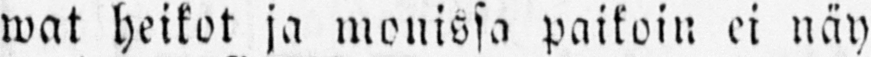wat heikot ja monissa paikoin ei näy
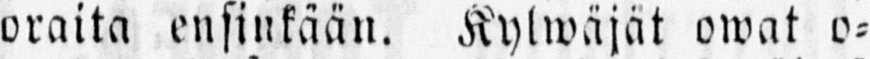oraita ensinkään. Kylwäjät owat o-
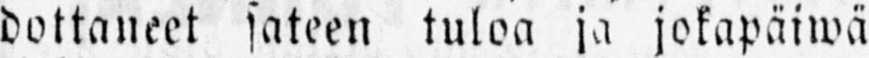dottaneet sateen tuloa ja jokapäiwä
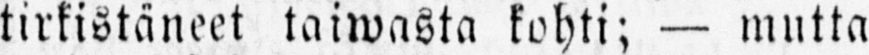tirkistäneet taiwasta kohti; — mutta
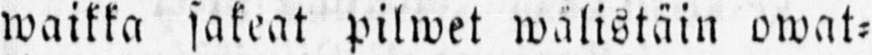waikka sakeat pilwet wälistäin owat-
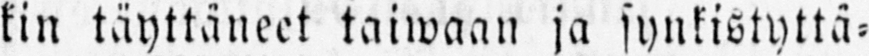kin täyttäneet taiwaan ja synkistyttä-
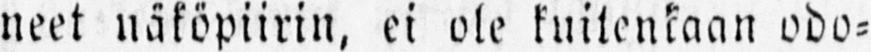neet näköpiirin, ei ole kuitenkaan odo-
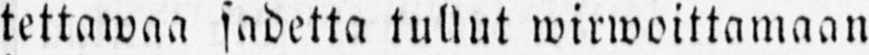tettawaa sadetta tullut wirwoittamaan
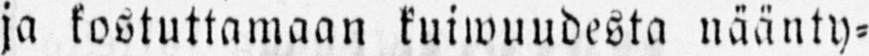ja kostuttamaan kuiwuudesta näänty-
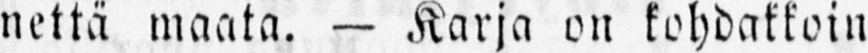nettä maata. — Karja on kohdakkoin
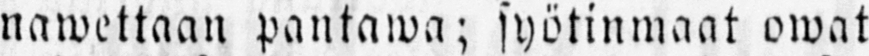nawettaan pantawa; syötinmaat owat
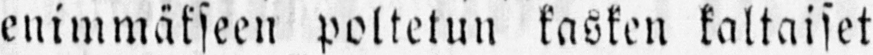enimmäkseen poltetun kasken kaltaiset
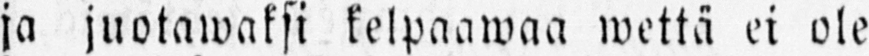ja juotawaksi kelpaawaa wettä ei ole
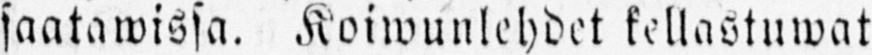saatawissa. Koiwunlehdet kellastuwat
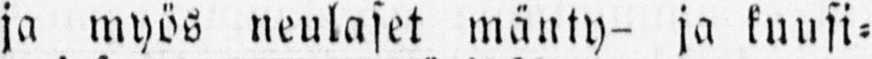ja myös neulaset mänty- ja kuusi-
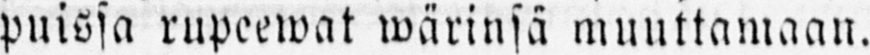puissa rupeewat wärinsä muuttamaan.
